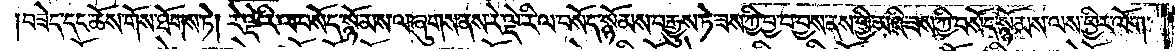བཟེད་དང་ཆོས་གོས་ཐོགས་ཏེ། རེ་ལྡེ་རི་ལ་བསོད་སྙོམས་ལ་ཞུགས་ནས་རེ་ལྡེ་རི་ལ་བསོད་སྙོམས་བརྒྱུས་ཏེ་ཟས་ཀྱི་བྱ་བ་བྱས་ནས་ཕྱི་མའི་ཟས་ཀྱི་བསོད་སྙོམས་ལས་ཕྱིར་ལོག་
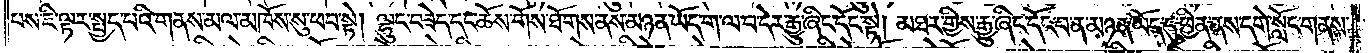པས་ཇི་ལྟར་སྤྱད་པའི་གནས་མལ་མཁོས་སུ་ཕབ་སྟེ། ལྷུང་བཟེད་དང་ཆོས་གོས་ཐོགས་ནས་མཉན་ཡོད་ག་ལ་བ་དེར་རྒྱུ་ཞིང་དོང་སྟེ། མཐར་གྱིས་རྒྱུ་ཞིང་དོང་བ་ན་མཉན་ཡོད་དུ་ཕྱིན་ནས་དགེ་སློང་གནས་
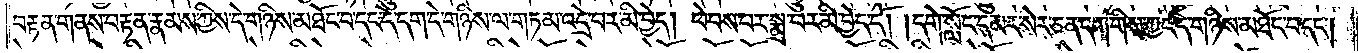བརྟན་གནས་བརྟན་རྣམས་ཀྱིས་དེ་གཉིས་མཐོང་བ་དང་དེ་དག་དེ་གཉིས་ལ་གཏམ་འདྲེ་བར་མི་བྱེད། ཕེབས་པར་སྨྲ་བར་མི་བྱེད་དོ། །དགེ་སློང་དམར་སེར་ཅན་དག་གིས་ཀྱང་དེ་གཉིས་མཐོང་བ་དང༌།
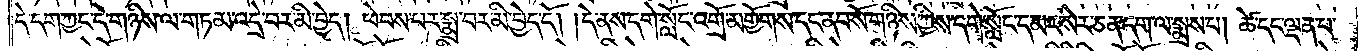དེ་དག་ཀྱང་དེ་གཉིས་ལ་གཏམ་འདྲེ་བར་མི་བྱེད། ཕེབས་པར་སྨྲ་བར་མི་བྱེད་དོ། །དེ་ནས་དགེ་སློང་འགྲོ་མགྱོགས་དང་ནབ་སོ་གཉིས་ཀྱིས་དགེ་སློང་དམར་སེར་ཅན་དག་ལ་སྨྲས་པ། ཚེ་དང་ལྡན་པ་
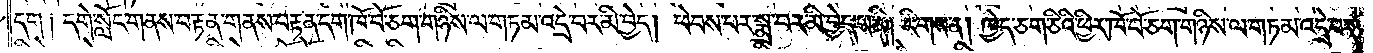དག ། དགེ་སློང་གནས་བརྟན་གནས་བརྟན་དག་ཁོ་བོ་ཅག་གཉིས་ལ་གཏམ་འདྲེ་བར་མི་བྱེད། ཕེབས་པར་སྨྲ་བར་མི་བྱེད་པ་ནི། རིགས་ན། ཁྱེད་ཅག་ཅིའི་ཕྱིར་ཁོ་བོ་ཅག་གཉིས་ལ་གཏམ་འདྲེ་བར་
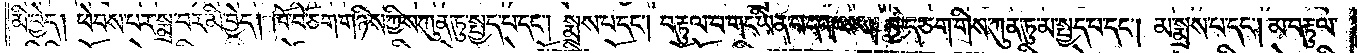མི་བྱེད། ཕེབས་པར་སྨྲ་བར་མི་བྱེད། ཁོ་བོ་ཅག་གཉིས་ཀྱིས་ཀུན་ཏུ་སྤྱད་པ་དང༌། སྨྲས་པ་དང༌། བརྟུལ་བ་གང་ཡིན་པ་དག་ལས། ཁྱེད་ཅག་གིས་ཀུན་ཏུ་མ་སྤྱད་པ་དང༌། མ་སྨྲས་པ་དང༌། མ་བརྟུལ་
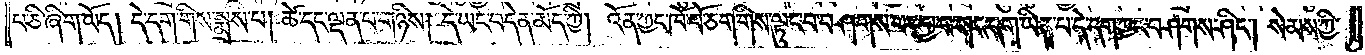པ་ཅི་ཞིག་ཡོད། དེ་དག་གིས་སྨྲས་པ། ཚེ་དང་ལྡན་པ་གཉིས། དེ་ཡང་བདེན་མོད་ཀྱི། འོན་ཀྱང་ཁོ་བོ་ཅག་གིས་ལྟུང་བ་བཤགས་པར་བྱ་བ་གང་དག་ཡིན་པ་དེ་དག་ཀྱང་བཤགས་ཤིང༌། སེམས་ཀྱི་
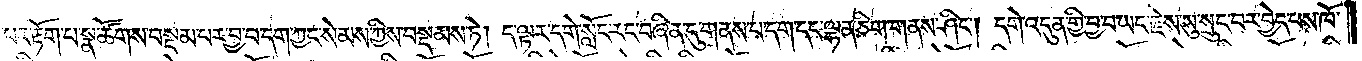རྣམ་པར་རྟོག་པ་སྣ་ཚོགས་བསྡམ་པར་བྱ་བ་དག་ཀྱང་སེམས་ཀྱིས་བསྡམས་ཏེ། ད་ལྟར་དགེ་སློང་རང་བཞིན་དུ་གནས་པ་དག་དང་ལྷན་ཅིག་གནས་ཤིང༌། དགེ་འདུན་གྱི་བྱ་བ་ཡང་རྗེས་སུ་སྲུང་བར་བྱེད་པས་ཁོ་
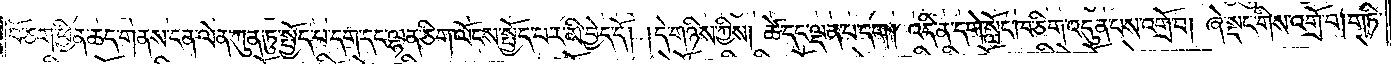བོ་ཅག་ཕྱིན་ཆད་གནས་ངན་ལེན་ཀུན་ཏུ་སྤྱོད་པ་དག་དང་ལྷན་ཅིག་ལོངས་སྤྱོད་པར་མི་བྱེད་དོ། །དེ་གཉིས་ཀྱིས། ཚེ་དང་ལྡན་པ་དག ། འདི་ན་དགེ་སློང་ཁ་ཅིག་འདུན་པས་འགྲོ་བ། ཞེ་སྡང་གིས་འགྲོ་བ། གཏི་
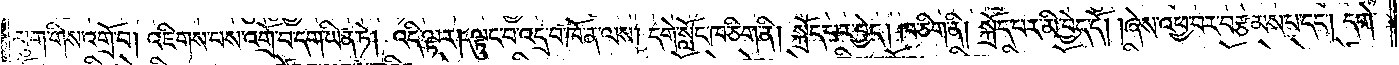མུག་གིས་འགྲོ་བ། འཇིགས་པས་འགྲོ་བ་དག་ཡིན་ཏེ། འདི་ལྟར། ལྟུང་བ་འདྲ་བ་ཁོ་ན་ལས། དགེ་སློང་ཁ་ཅིག་ནི། སྐྲོད་པར་བྱེད། ཁ་ཅིག་ནི། སྐྲོད་པར་མི་བྱེད་དོ། །ཞེས་འཕྱ་བར་བརྩམས་པ་དང༌། དགེ་
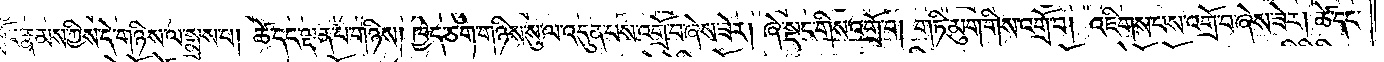སློང་རྣམས་ཀྱིས་དེ་གཉིས་ལ་སྨྲས་པ། ཚེ་དང་ལྡན་པ་གཉིས། ཁྱེད་ཅག་གཉིས་སུ་ལ་འདུན་པས་འགྲོ་བ་ཞེས་ཟེར། ཞེ་སྡང་གིས་འགྲོ་བ། གཏི་མུག་གིས་འགྲོ་བ། འཇིགས་པས་འགྲོ་བ་ཞེས་ཟེར། ཚེ་དང་
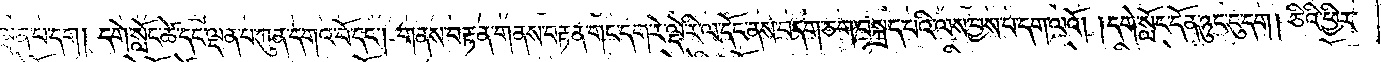ལྡན་པ་དག། དགེ་སློང་ཚེ་དང་ལྡན་པ་ཀུན་དགའ་བོ་དང༌། གནས་བརྟན་གནས་བརྟན་གང་དག་རེ་ལྡེ་རི་ལ་དོང་ནས་བདག་ཅག་བསྐྲད་པའི་ལས་བྱས་པ་དག་ལའོ། །དགེ་སློང་དོན་ཉུང་དུ་དག། ཅིའི་ཕྱིར་
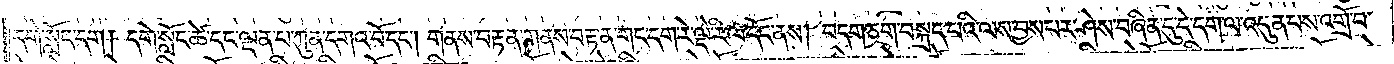དགེ་སློང་དག། དགེ་སློང་ཚེ་དང་ལྡན་པ་ཀུན་དགའ་བོ་དང༌། གནས་བརྟན་གནས་བརྟན་གང་དག་རེ་ལྡེ་རི་ལ་དོང་ནས། བདག་ཅག་བསྐྲད་པའི་ལས་བྱས་པར་ཤེས་བཞིན་དུ་དེ་དག་ལ་འདུན་པས་འགྲོ་བ་
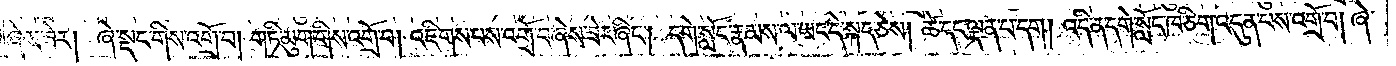ཞེས་ཟེར། ཞེ་སྡང་གིས་འགྲོ་བ། གཏི་མུག་གིས་འགྲོ་བ། འཇིགས་པས་འགྲོ་བ་ཞེས་ཟེར་ཞིང༌། དགེ་སློང་རྣམས་ལ་ཡང་དེ་སྐད་ཅེས། ཚེ་དང་ལྡན་པ་དག། འདི་ན་དགེ་སློང་ཁ་ཅིག་འདུན་པས་འགྲོ་བ། ཞེ་
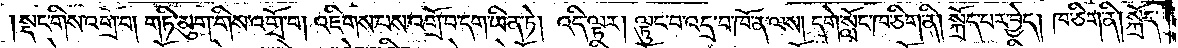སྡང་གིས་འགྲོ་བ། གཏི་མུག་གིས་འགྲོ་བ། འཇིགས་པས་འགྲོ་བ་དག་ཡིན་ཏེ། འདི་ལྟར། ལྟུང་བ་འདྲ་བ་ཁོ་ན་ལས། དགེ་སློང་ཁ་ཅིག་ནི། སྐྲོད་པར་བྱེད། ཁ་ཅིག་ནི། སྐྲོད་
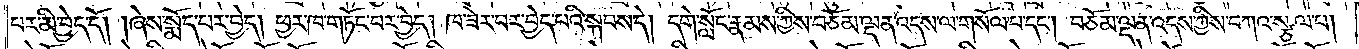པར་མི་བྱེད་དོ། །ཞེས་སྨོད་པར་བྱེད། ཕྱར་ཁ་གཏོང་བར་བྱེད། ཁ་ཟེར་བར་བྱེད་པའི་སྐབས་དེ། དགེ་སློང་རྣམས་ཀྱིས་བཅོམ་ལྡན་འདས་ལ་གསོལ་པ་དང༌། བཅོམ་ལྡན་འདས་ཀྱིས་བཀའ་སྩལ་པ།
